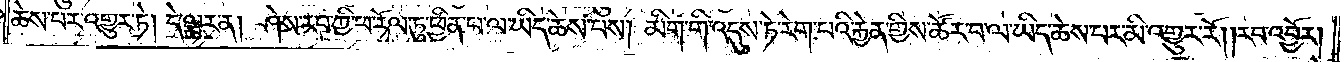ཆེས་པར་འགྱུར་ཏེ། དེ་ལྟར་ན། ཤེས་རབ་ཀྱི་ཕ་རོལ་ཏུ་ཕྱིན་པ་ལ་ཡིད་ཆེས་པས། མིག་གི་འདུས་ཏེ་རེག་པའི་རྐྱེན་གྱིས་ཚོར་བ་ལ་ཡིད་ཆེས་པར་མི་འགྱུར་རོ། །རབ་འབྱོར།
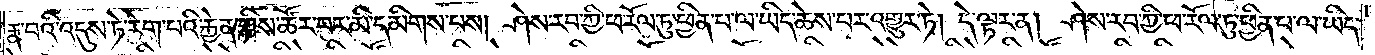རྣ་བའི་འདུས་ཏེ་རེག་པའི་རྐྱེན་གྱིས་ཚོར་བར་མི་དམིགས་པས། ཤེས་རབ་ཀྱི་ཕ་རོལ་ཏུ་ཕྱིན་པ་ལ་ཡིད་ཆེས་པར་འགྱུར་ཏེ། དེ་ལྟར་ན། ཤེས་རབ་ཀྱི་ཕ་རོལ་ཏུ་ཕྱིན་པ་ལ་ཡིད་
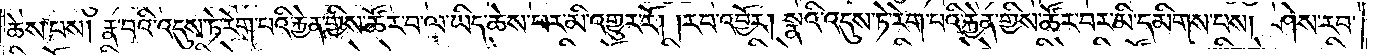ཆེས་པས། རྣ་བའི་འདུས་ཏེ་རེག་པའི་རྐྱེན་གྱིས་ཚོར་བ་ལ་ཡིད་ཆེས་པར་མི་འགྱུར་རོ། །རབ་འབྱོར། སྣའི་འདུས་ཏེ་རེག་པའི་རྐྱེན་གྱིས་ཚོར་བར་མི་དམིགས་པས། ཤེས་རབ་
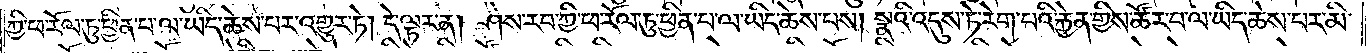ཀྱི་ཕ་རོལ་ཏུ་ཕྱིན་པ་ལ་ཡིད་ཆེས་པར་འགྱུར་ཏེ། དེ་ལྟར་ན། ཤེས་རབ་ཀྱི་ཕ་རོལ་ཏུ་ཕྱིན་པ་ལ་ཡིད་ཆེས་པས། སྣའི་འདུས་ཏེ་རེག་པའི་རྐྱེན་གྱིས་ཚོར་བ་ལ་ཡིད་ཆེས་པར་མི་
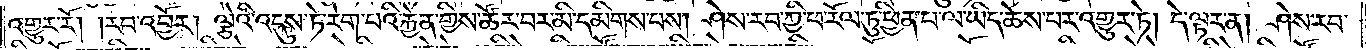འགྱུར་རོ། །རབ་འབྱོར། ལྕེའི་འདུས་ཏེ་རེག་པའི་རྐྱེན་གྱིས་ཚོར་བར་མི་དམིགས་པས། ཤེས་རབ་ཀྱི་ཕ་རོལ་ཏུ་ཕྱིན་པ་ལ་ཡིད་ཆེས་པར་འགྱུར་ཏེ། དེ་ལྟར་ན། ཤེས་རབ་
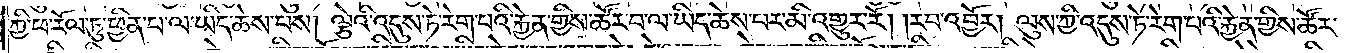ཀྱི་ཕ་རོལ་ཏུ་ཕྱིན་པ་ལ་ཡིད་ཆེས་པས། ལྕེའི་འདུས་ཏེ་རེག་པའི་རྐྱེན་གྱིས་ཚོར་བ་ལ་ཡིད་ཆེས་པར་མི་འགྱུར་རོ། །རབ་འབྱོར། ལུས་ཀྱི་འདུས་ཏེ་རེག་པའི་རྐྱེན་གྱིས་ཚོར་
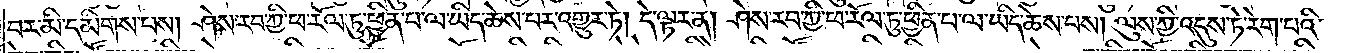བར་མི་དམིགས་པས། ཤེས་རབ་ཀྱི་ཕ་རོལ་ཏུ་ཕྱིན་པ་ལ་ཡིད་ཆེས་པར་འགྱུར་ཏེ། དེ་ལྟར་ན། ཤེས་རབ་ཀྱི་ཕ་རོལ་ཏུ་ཕྱིན་པ་ལ་ཡིད་ཆེས་པས། ལུས་ཀྱི་འདུས་ཏེ་རེག་པའི་
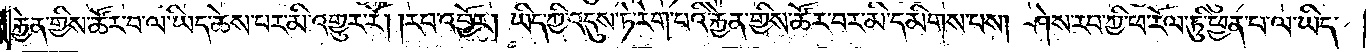རྐྱེན་གྱིས་ཚོར་བ་ལ་ཡིད་ཆེས་པར་མི་འགྱུར་རོ། །རབ་འབྱོར། ཡིད་ཀྱི་འདུས་ཏེ་རེག་པའི་རྐྱེན་གྱིས་ཚོར་བར་མི་དམིགས་པས། ཤེས་རབ་ཀྱི་ཕ་རོལ་ཏུ་ཕྱིན་པ་ལ་ཡིད་
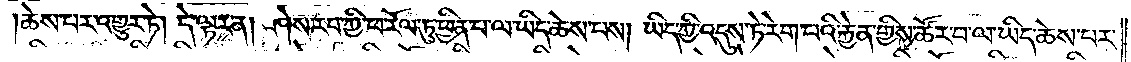ཆེས་པར་འགྱུར་ཏེ། དེ་ལྟར་ན། ཤེས་རབ་ཀྱི་ཕ་རོལ་ཏུ་ཕྱིན་པ་ལ་ཡིད་ཆེས་པས། ཡིད་ཀྱི་འདུས་ཏེ་རེག་པའི་རྐྱེན་གྱིས་ཚོར་བ་ལ་ཡིད་ཆེས་པར་
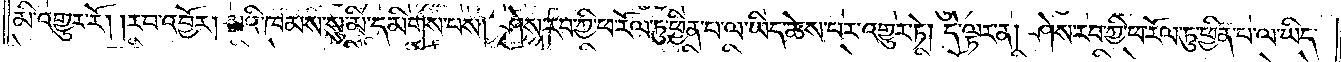མི་འགྱུར་རོ། །རབ་འབྱོར། སའི་ཁམས་སུ་མི་དམིགས་པས། ཤེས་རབ་ཀྱི་ཕ་རོལ་ཏུ་ཕྱིན་པ་ལ་ཡིད་ཆེས་པར་འགྱུར་ཏེ། དེ་ལྟར་ན། ཤེས་རབ་ཀྱི་ཕ་རོལ་ཏུ་ཕྱིན་པ་ལ་ཡིད་
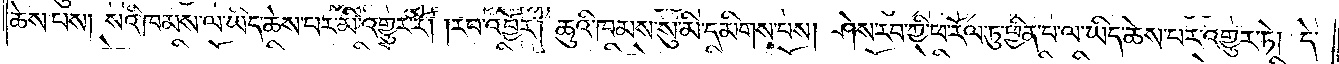ཆེས་པས། སའི་ཁམས་ལ་ཡིད་ཆེས་པར་མི་འགྱུར་རོ། །རབ་འབྱོར། ཆུའི་ཁམས་སུ་མི་དམིགས་པས། ཤེས་རབ་ཀྱི་ཕ་རོལ་ཏུ་ཕྱིན་པ་ལ་ཡིད་ཆེས་པར་འགྱུར་ཏེ། དེ་
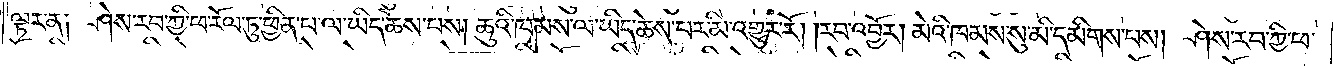ལྟར་ན༑ ཤེས་རབ་ཀྱི་ཕ་རོལ་ཏུ་ཕྱིན་པ་ལ་ཡིད་ཆེས་པས། ཆུའི་ཁམས་ལ་ཡིད་ཆེས་པར་མི་འགྱུར་རོ། །རབ་འབྱོར། མེའི་ཁམས་སུ་མི་དམིགས་པས། ཤེས་རབ་ཀྱི་ཕ་
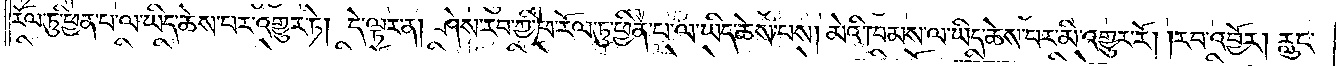རོལ་ཏུ་ཕྱིན་པ་ལ་ཡིད་ཆེས་པར་འགྱུར་ཏེ། དེ་ལྟར་ན། ཤེས་རབ་ཀྱི་ཕ་རོལ་ཏུ་ཕྱིན་པ་ལ་ཡིད་ཆེས་པས། མེའི་ཁམས་ལ་ཡིད་ཆེས་པར་མི་འགྱུར་རོ། །རབ་འབྱོར། རླུང་
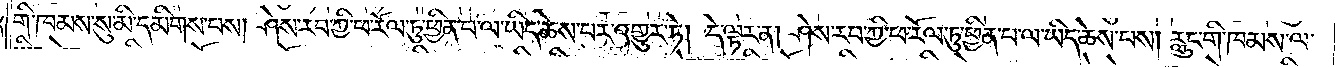གི་ཁམས་སུ་མི་དམིགས་པས། ཤེས་རབ་ཀྱི་ཕ་རོལ་ཏུ་ཕྱིན་པ་ལ་ཡིད་ཆེས་པར་འགྱུར་ཏེ། དེ་ལྟར་ན། ཤེས་རབ་ཀྱི་ཕ་རོལ་ཏུ་ཕྱིན་པ་ལ་ཡིད་ཆེས་པས། རླུང་གི་ཁམས་ལ་
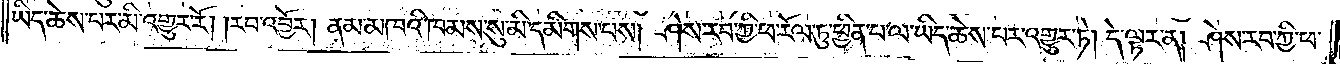ཡིད་ཆེས་པར་མི་འགྱུར་རོ། །རབ་འབྱོར། ནམ་མཁའི་ཁམས་སུ་མི་དམིགས་པས། ཤེས་རབ་ཀྱི་ཕ་རོལ་ཏུ་ཕྱིན་པ་ལ་ཡིད་ཆེས་པར་འགྱུར་ཏེ། དེ་ལྟར་ན། ཤེས་རབ་ཀྱི་ཕ་
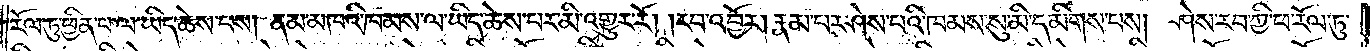རོལ་ཏུ་ཕྱིན་པ་ལ་ཡིད་ཆེས་པས། ནམ་མཁའི་ཁམས་ལ་ཡིད་ཆེས་པར་མི་འགྱུར་རོ། །རབ་འབྱོར། རྣམ་པར་ཤེས་པའི་ཁམས་སུ་མི་དམིགས་པས། ཤེས་རབ་ཀྱི་ཕ་རོལ་ཏུ་
